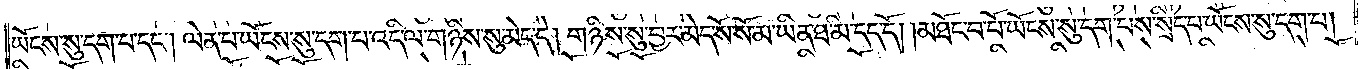ཡོངས་སུ་དག་པ་དང༌། ལེན་པ་ཡོངས་སུ་དག་པ་འདི་ལ་གཉིས་སུ་མེད་དེ། གཉིས་སུ་བྱར་མེད་སོ་སོ་མ་ཡིན་ཐ་མི་དད་དོ། །མཐོང་བ་པོ་ཡོངས་སུ་དག་པས་སྲིད་པ་ཡོངས་སུ་དག་པ།
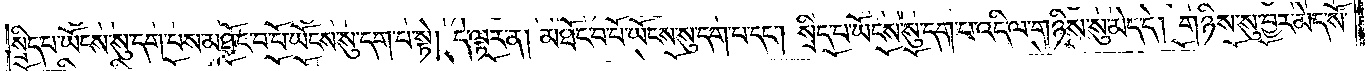སྲིད་པ་ཡོངས་སུ་དག་པས་མཐོང་བ་པོ་ཡོངས་སུ་དག་པ་སྟེ། དེ་ལྟར་ན། མཐོང་བ་པོ་ཡོངས་སུ་དག་པ་དང༌། སྲིད་པ་ཡོངས་སུ་དག་པ་འདི་ལ་གཉིས་སུ་མེད་དེ། གཉིས་སུ་བྱར་མེད་སོ་
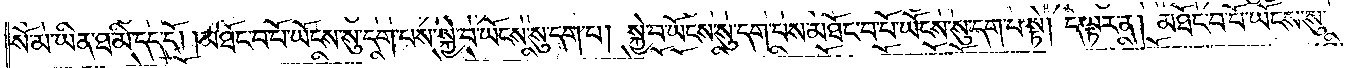སོ་མ་ཡིན་ཐ་མི་དད་དོ། །མཐོང་བ་པོ་ཡོངས་སུ་དག་པས་སྐྱེ་བ་ཡོངས་སུ་དག་པ་དང༌། སྐྱེ་བ་ཡོངས་སུ་དག་པས་མཐོང་བ་པོ་ཡོངས་སུ་དག་པ་སྟེ། དེ་ལྟར་ན། མཐོང་བ་པོ་ཡོངས་སུ་
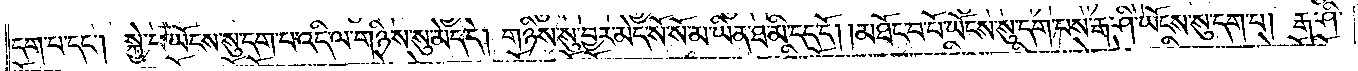དག་པ་དང༌། སྐྱེ་བ་ཡོངས་སུ་དག་པ་འདི་ལ་གཉིས་སུ་མེད་དེ། གཉིས་སུ་བྱར་མེད་སོ་སོ་མ་ཡིན་ཐ་མི་དད་དོ། །མཐོང་བ་པོ་ཡོངས་སུ་དག་པས་རྒ་ཤི་ཡོངས་སུ་དག་པ། རྒ་ཤི་
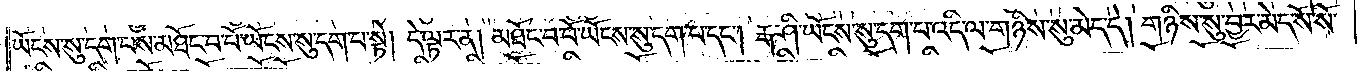ཡོངས་སུ་དག་པས་མཐོང་བ་པོ་ཡོངས་སུ་དག་པ་སྟེ། དེ་ལྟར་ན། མཐོང་བ་པོ་ཡོངས་སུ་དག་པ་དང༌། རྒ་ཤི་ཡོངས་སུ་དག་པ་འདི་ལ་གཉིས་སུ་མེད་དེ། གཉིས་སུ་བྱར་མེད་སོ་སོ་
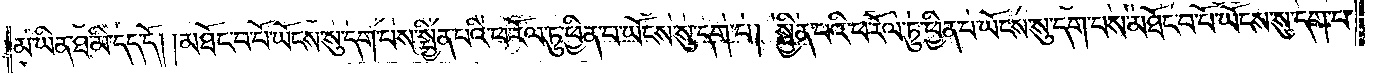མ་ཡིན་ཐ་མི་དད་དོ། །མཐོང་བ་པོ་ཡོངས་སུ་དག་པས་སྦྱིན་པའི་ཕ་རོལ་ཏུ་ཕྱིན་པ་ཡོངས་སུ་དག་པ། སྦྱིན་པའི་ཕ་རོལ་ཏུ་ཕྱིན་པ་ཡོངས་སུ་དག་པས་མཐོང་བ་པོ་ཡོངས་སུ་དག་པ་
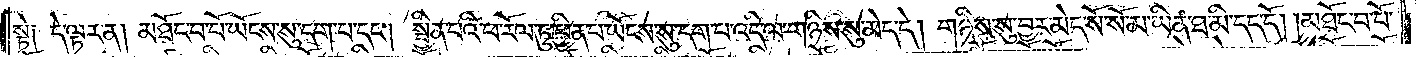སྟེ༑ དེ་ལྟར་ན། མཐོང་བ་པོ་ཡོངས་སུ་དག་པ་དང༌། སྦྱིན་པའི་ཕ་རོལ་ཏུ་ཕྱིན་པ་ཡོངས་སུ་དག་པ་འདི་ལ་གཉིས་སུ་མེད་དེ། གཉིས་སུ་བྱར་མེད་སོ་སོ་མ་ཡིན་ཐ་མི་དད་དོ། །མཐོང་བ་པོ་
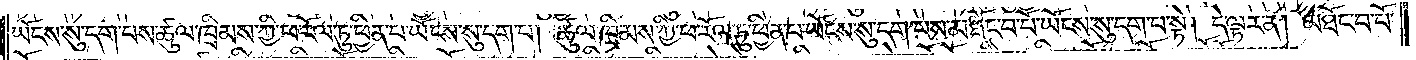ཡོངས་སུ་དག་པས་ཚུལ་ཁྲིམས་ཀྱི་ཕ་རོལ་ཏུ་ཕྱིན་པ་ཡོངས་སུ་དག་པ། ཚུལ་ཁྲིམས་ཀྱི་ཕ་རོལ་ཏུ་ཕྱིན་པ་ཡོངས་སུ་དག་པས་མཐོང་བ་པོ་ཡོངས་སུ་དག་པ་སྟེ། དེ་ལྟར་ན། མཐོང་བ་པོ་
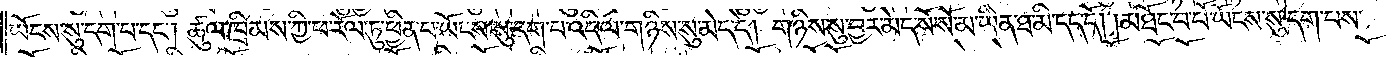ཡོངས་སུ་དག་པ་དང༌། ཚུལ་ཁྲིམས་ཀྱི་ཕ་རོལ་ཏུ་ཕྱིན་པ་ཡོངས་སུ་དག་པ་འདི་ལ་གཉིས་སུ་མེད་དེ། གཉིས་སུ་བྱར་མེད་སོ་སོ་མ་ཡིན་ཐ་མི་དད་དོ། །མཐོང་བ་པོ་ཡོངས་སུ་དག་པས་
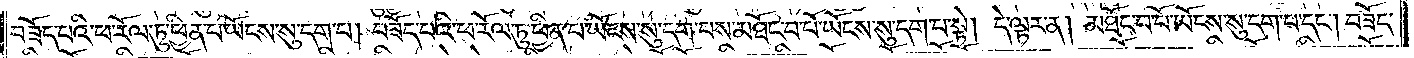བཟོད་པའི་ཕ་རོལ་ཏུ་ཕྱིན་པ་ཡོངས་སུ་དག་པ། བཟོད་པའི་ཕ་རོལ་ཏུ་ཕྱིན་པ་ཡོངས་སུ་དག་པས་མཐོང་བ་པོ་ཡོངས་སུ་དག་པ་སྟེ། དེ་ལྟར་ན། མཐོང་བ་པོ་ཡོངས་སུ་དག་པ་དང༌། བཟོད་
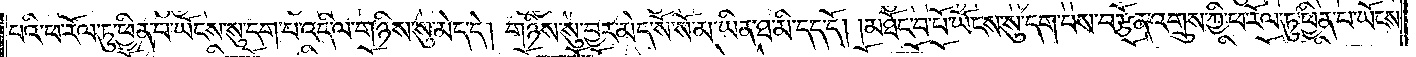པའི་ཕ་རོལ་ཏུ་ཕྱིན་པ་ཡོངས་སུ་དག་པ་འདི་ལ་གཉིས་སུ་མེད་དེ། གཉིས་སུ་བྱར་མེད་སོ་སོ་མ་ཡིན་ཐ་མི་དད་དོ། །མཐོང་བ་པོ་ཡོངས་སུ་དག་པས་བརྩོན་འགྲུས་ཀྱི་ཕ་རོལ་ཏུ་ཕྱིན་པ་ཡོངས་
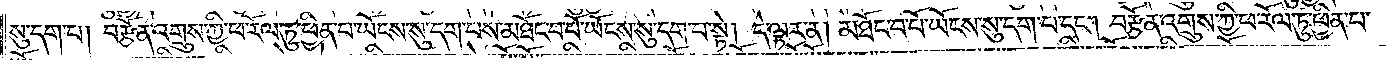སུ་དག་པ། བརྩོན་འགྲུས་ཀྱི་ཕ་རོལ་ཏུ་ཕྱིན་པ་ཡོངས་སུ་དག་པས་མཐོང་བ་པོ་ཡོངས་སུ་དག་པ་སྟེ། དེ་ལྟར་ན། མཐོང་བ་པོ་ཡོངས་སུ་དག་པ་དང༌། བརྩོན་འགྲུས་ཀྱི་ཕ་རོལ་ཏུ་ཕྱིན་པ་
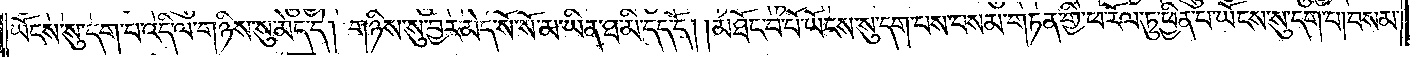ཡོངས་སུ་དག་པ་འདི་ལ་གཉིས་སུ་མེད་དེ། གཉིས་སུ་བྱར་མེད་སོ་སོ་མ་ཡིན་ཐ་མི་དད་དོ། །མཐོང་བ་པོ་ཡོངས་སུ་དག་པས་བསམ་གཏན་གྱི་ཕ་རོལ་ཏུ་ཕྱིན་པ་ཡོངས་སུ་དག་པ། བསམ་
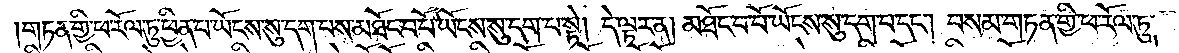གཏན་གྱི་ཕ་རོལ་ཏུ་ཕྱིན་པ་ཡོངས་སུ་དག་པས་མཐོང་བ་པོ་ཡོངས་སུ་དག་པ་སྟེ། དེ་ལྟར་ན། མཐོང་བ་པོ་ཡོངས་སུ་དག་པ་དང༌། བསམ་གཏན་གྱི་ཕ་རོལ་ཏུ་
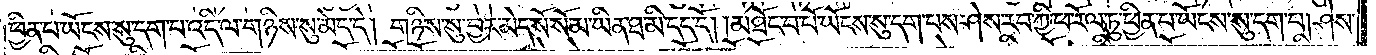ཕྱིན་པ་ཡོངས་སུ་དག་པ་འདི་ལ་གཉིས་སུ་མེད་དེ། གཉིས་སུ་བྱར་མེད་སོ་སོ་མ་ཡིན་ཐ་མི་དད་དོ། །མཐོང་བ་པོ་ཡོངས་སུ་དག་པས་ཤེས་རབ་ཀྱི་ཕ་རོལ་ཏུ་ཕྱིན་པ་ཡོངས་སུ་དག་པ། ཤེས་
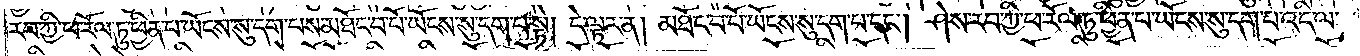རབ་ཀྱི་ཕ་རོལ་ཏུ་ཕྱིན་པ་ཡོངས་སུ་དག་པས་མཐོང་བ་པོ་ཡོངས་སུ་དག་པ་སྟེ། དེ་ལྟར་ན། མཐོང་བ་པོ་ཡོངས་སུ་དག་པ་དང༌། ཤེས་རབ་ཀྱི་ཕ་རོལ་ཏུ་ཕྱིན་པ་ཡོངས་སུ་དག་པ་འདི་ལ་
